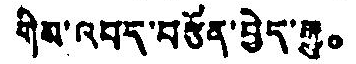གིས་འབད་བརྩོན་བྱེད་རྒྱུ。
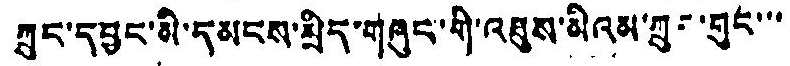ཀྲུང་དབྱང་མི་དམངས་སྲིད་གཞུང་གི་འཐུས་མིའམ་ཀྲུང་གུང་་་
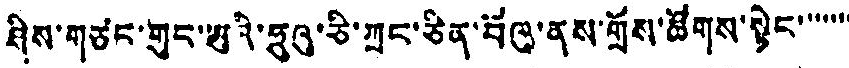ཤིས་གཙང་གུང་ཨུའི་ཧྲུའུ་ཅི་ཀྲང་ཅིན་པོའུ་ནས་གྲོས་ཚོགས་སྟེང་་་་་་་་
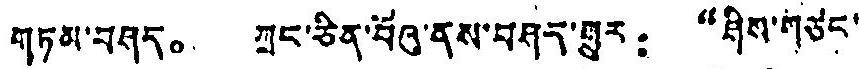གཏམ་བཤད。 ཀྲུང་ཅིན་པོའུ་ནས་བཤད་གྱུར： “ཤིས་གཙང་
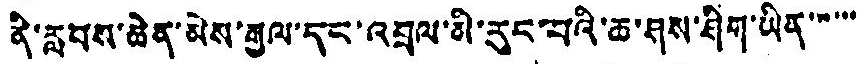ནི་རླབས་ཆེན་མེས་རྒྱལ་དང་འབྲལ་མི་རུང་བའི་ཆ་ཤས་ཤིག་ཡིན་་་་་་
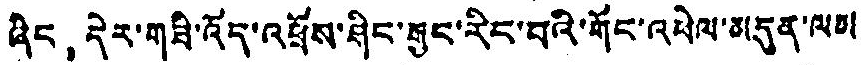ཞིང， དེར་གཟི་འོད་འཕྲོས་ཤིང་ཐུང་རིང་བའི་གོང་འཕེལ་མདུན་ལམ།
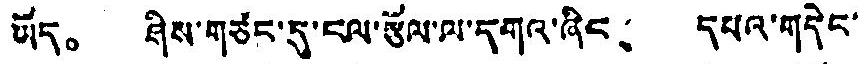ཡོད。 ཤིས་གཙང་དུ་ངལ་རྩོལ་ལ་དགའ་ཞིང、 དཔའ་གདེང་
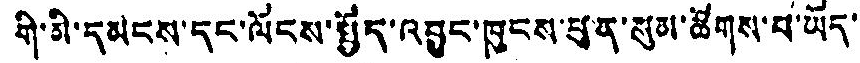གི་མི་དམངས་དང་ལོངས་སྤྱོད་འབྱུང་ཁུངས་ཕུན་སུམ་ཚོགས་པ་ཡོད་
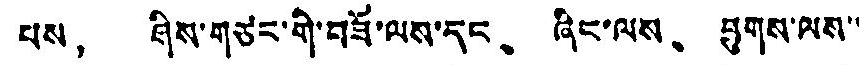པས， ཤིས་གཙང་གི་བཟོ་ལས་དང、 ཞིང་ལས、 ཕྱུགས་ལས་་
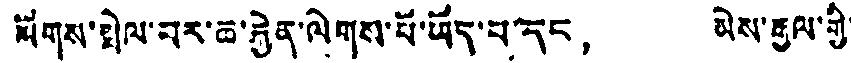སོགས་སྤེལ་བར་ཆ་རྐྱེན་ལེགས་པོ་ཡོད་པ་དང， མེས་རྒྱལ་གྱི་
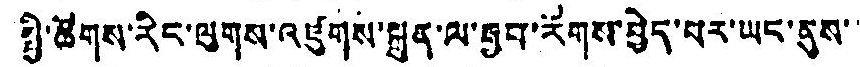སྤྱི་ཚོགས་རིང་ལུགས་འཛུགས་སྐྲུན་ལ་རྒྱབ་རོགས་བྱེད་པར་ཡང་ནུས་་
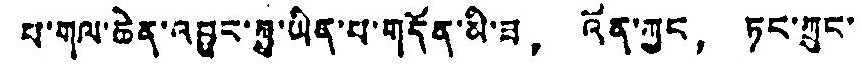པ་གལ་ཆེན་འབྱུང་ཀུ་ཡིན་པ་གདོན་མི་ཟ， འོན་ཀྱང， ཏང་ཀྲུང་
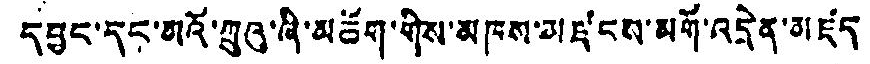དབྱང་དང་མའོ་ཀྲུའུ་ཞི་མཆོག་གིས་མཁས་མཛངས་མགོ་འདྲེན་མཛད་
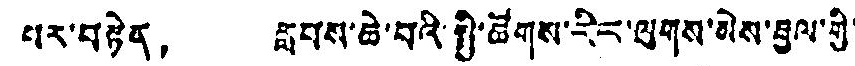པར་བརྟེན， རླབས་ཆེ་བའི་སྤྱི་ཚོགས་རིང་ལུགས་མེས་བྱལ་གྱི་
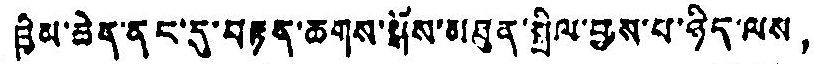ཁྱིམ་ཆེད་ནང་དུ་བརྟན་ཆགས་སྒོས་མཐུན་སྒྲིལ་བྱས་པ་ཉིད་ལས，
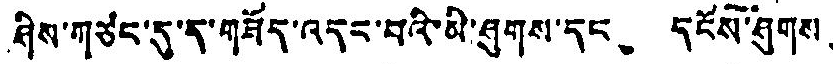ཤིས་གཙང་དུ་ད་གཟོད་འདང་བའི་མི་ཤུགས་དང、 དངོས་ཤུགས、
